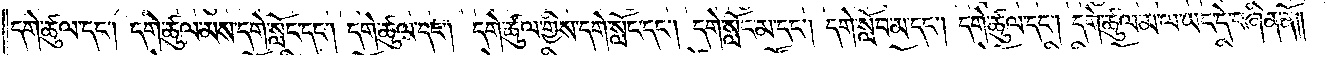དགེ་ཚུལ་དང༌། དགེ་ཚུལ་མས་དགེ་སློང་དང༌། དགེ་ཚུལ་དང༌། དགེ་ཚུལ་གྱིས་དགེ་སློང་དང༌། དགེ་སློང་མ་དང༌། དགེ་སློབ་མ་དང༌། དགེ་ཚུལ་དང༌། དགེ་ཚུལ་མ་ལ་ཡང་དེ་བཞིན་ནོ༎
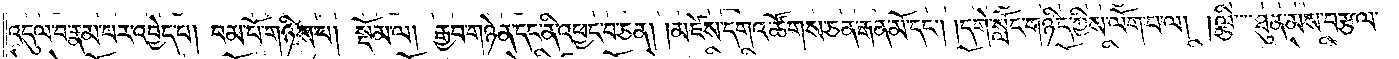འདུལ་བ་རྣམ་པར་འབྱེད་པ། བམ་པོ་གཉིས་པ། སྡོམ་ལ། རྒྱབ་གཉེན་དང་ནི་འཕྱང་བ་ཅན། །མཛེས་དགའ་ཚོགས་ཅན་རྒན་མོ་དང༌། །དགེ་སློང་གཉིད་ཀྱིས་ལོག་པ་ལ། །ལྕི་ཐུན་མས་བརྩལ་
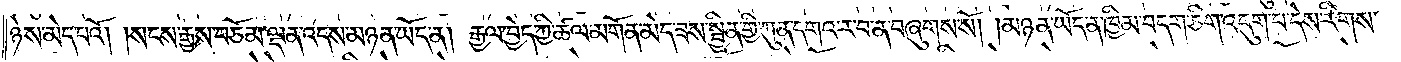ཉེས་མེད་པའོ། །སངས་རྒྱས་བཅོམ་ལྡན་འདས་མཉན་ཡོད་ན། རྒྱལ་བྱེད་ཀྱི་ཚལ་མགོན་མེད་ཟས་སྦྱིན་གྱི་ཀུན་དགའ་ར་བ་ན་བཞུགས་སོ། །མཉན་ཡོད་ན་ཁྱིམ་བདག་ཅིག་འདུག་པ་དེས་རིགས་
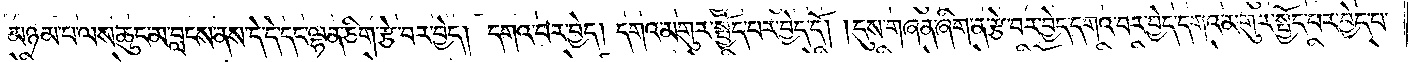མཉམ་པ་ལས་ཆུང་མ་བླངས་ནས་དེ་དེ་དང་ལྷན་ཅིག་རྩེ་བར་བྱེད། དགའ་བར་བྱེད། དགའ་མགུར་སྤྱོད་པར་བྱེད་དོ། །དུས་གཞན་ཞིག་ན་རྩེ་བར་བྱེད་དགའ་བར་བྱེད་དགའ་མགུར་སྤྱོད་པར་བྱེད་པ་
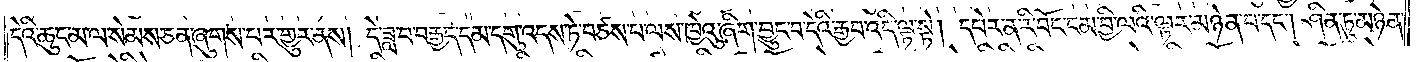དེའི་ཆུང་མ་ལ་སེམས་ཅན་ཞུགས་པར་གྱུར་ནས། དེ་ཟླ་བ་བརྒྱད་དམ་དགུ་འདས་ཏེ་བཙས་པ་ལས་ཁྱེའུ་ཞིག་བྱུང་བ་དེའི་རྒྱབ་འདི་ལྟ་སྟེ། དཔེར་ན་རི་བོང་ངམ་བྱི་ལའི་ལྟར་མཉེན་པ་དང༌། ཤིན་ཏུ་མཉེན་
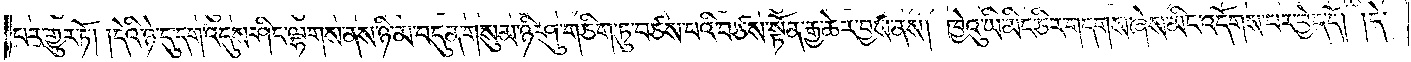པར་གྱུར་ཏོ། །དེའི་ཉེ་དུ་དག་འདུས་ཤིང་ལྷགས་ནས་ཉི་མ་བདུན་གསུམ་ཉི་ཤུ་གཅིག་ཏུ་བཙས་པའི་བཙས་སྟོན་རྒྱ་ཆེར་བྱས་ནས། ཁྱེའུ་ཡི་མིང་ཅིར་གདགས་ཞེས་མིང་འདོགས་པར་བྱེད་དོ། །དེ་
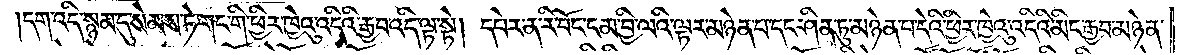།དག་འདི་སྙམ་དུ་སེམས་ཏེ་གང་གི་ཕྱིར་ཁྱེའུ་འདིའི་རྒྱབ་འདི་ལྟ་སྟེ། དཔེར་ན་རི་བོང་ངམ་བྱི་ལའི་ལྟར་མཉེན་པ་དང་ཤིན་ཏུ་མཉེན་པ་དེའི་ཕྱིར་ཁྱེའུ་འདིའི་མིང་རྒྱབ་མཉེན་
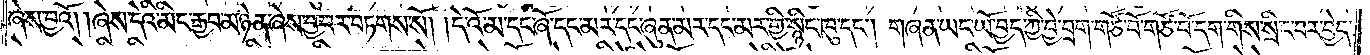ཞེས་བྱའོ། །ཞེས་དེའི་མིང་རྒྱབ་མཉེན་ཞེས་བྱ་བར་བཏགས་སོ། །དེ་འོ་མ་དང་ཞོ་དང་མར་དང་ཞུན་མར་དང་མར་གྱི་སྙིང་ཁུ་དང༌། གཞན་ཡང་ཡོ་བྱད་ཀྱི་བྱེ་བྲག་གཙོ་བོ་གཙོ་བོ་དག་གིས་སྲིང་བར་བྱེད་
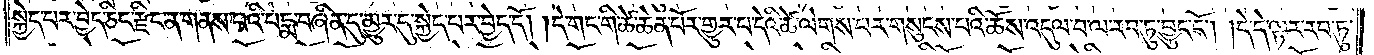སྐྱེད་པར་བྱེད་ཅིང་རྫིང་ན་གནས་པའི་པདྨ་བཞིན་དུ་མྱུར་དུ་སྐྱེད་པར་བྱེད་དོ། །དེ་གང་གི་ཚེ་ཆེན་པོར་གྱུར་པ་དེའི་ཚེ་ལེགས་པར་གསུངས་པའི་ཆོས་འདུལ་བ་ལ་རབ་ཏུ་བྱུང་ངོ༌། །དེ་དེ་ལྟར་རབ་ཏུ་
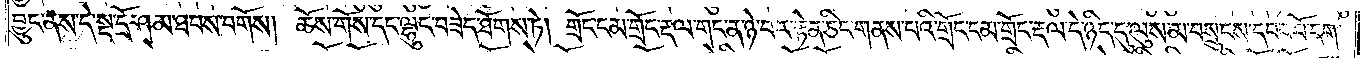བྱུང་ནས་དེ་སྔ་དྲོ་ཤམ་ཐབས་བགོས། ཆོས་གོས་དང་ལྷུང་བཟེད་ཐོགས་ཏེ། གྲོང་ངམ་གྲོང་རྡལ་གང་ན་ཉེ་བར་རྟེན་ཅིང་གནས་པའི་གྲོང་ངམ་གྲོང་རྡལ་དེ་ཉིད་དུ་ལུས་མ་བསྲུངས་དབང་པོ་དག་
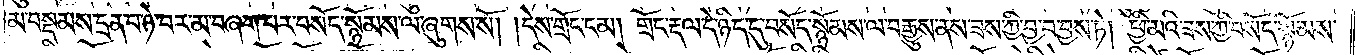མ་བསྡམས་དྲན་པ་ཉེ་བར་མ་བཞག་པར་བསོད་སྙོམས་ལ་ཞུགས་སོ། །དེས་གྲོང་ངམ། གྲོང་རྡལ་དེ་ཉིད་དུ་བསོད་སྙོམས་ལ་བརྒྱུས་ནས་ཟས་ཀྱི་བྱ་བ་བྱས་ཏེ། ཕྱི་མའི་ཟས་ཀྱི་བསོད་སྙོམས་
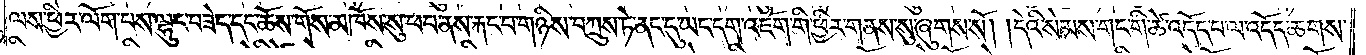ལས་ཕྱིར་ལོག་པས་ལྷུང་བཟེད་དང་ཆོས་གོས་མཁོས་སུ་ཕབ་ནས་རྐང་པ་གཉིས་བཀྲུས་ཏེ་ནང་དུ་ཡང་དག་འཇོག་གི་ཕྱིར་གནས་སུ་ཞུགས་སོ། །དེའི་སེམས་གང་གི་ཚེ་འདོད་པ་ལ་འདོད་ཆགས་
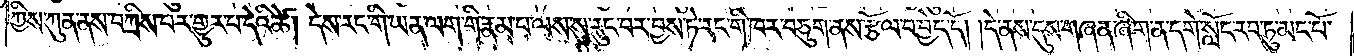ཀྱིས་ཀུན་ནས་བཀྲིས་པར་གྱུར་པ་དེའི་ཚེ། དེས་རང་གི་ཡན་ལག་གི་རྣམ་པ་ལས་སུ་རུང་བར་བྱས་ཏེ་རང་གི་ཁར་བཅུག་ནས་རྩོལ་བ་བྱེད་དོ། །དེ་ནས་དུས་གཞན་ཞིག་ན་དགེ་སློང་རབ་ཏུ་མང་པོ་
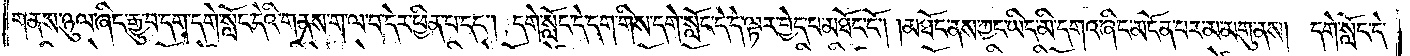གནས་ཉུལ་ཞིང་རྒྱུ་བ་དག་དགེ་སློང་དེའི་གནས་ག་ལ་བ་དེར་ཕྱིན་པ་དང༌། དགེ་སློང་དེ་དག་གིས་དགེ་སློང་དེ་དེ་ལྟར་བྱེད་པ་མཐོང་ངོ༌། །མཐོང་ནས་ཀྱང་ཡིད་མི་དགའ་ཞིང་མངོན་པར་མ་མགུ་ནས། དགེ་སློང་དེ་
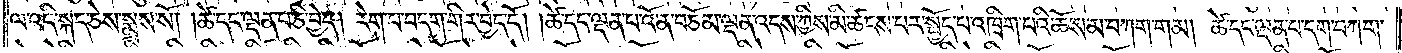ལ་འདི་སྐད་ཅེས་སྨྲས་སོ། །ཚེ་དང་ལྡན་པ་ཅི་བྱེད། རེག་པ་བདག་གིར་བྱེད་དོ། །ཚེ་དང་ལྡན་པ་འོ་ན་བཅོམ་ལྡན་འདས་ཀྱིས་མི་ཚངས་པར་སྤྱོད་པ་འཁྲིག་པའི་ཆོས་མ་བཀག་གམ། ཚེ་དང་ལྡན་པ་དག་བཀག་
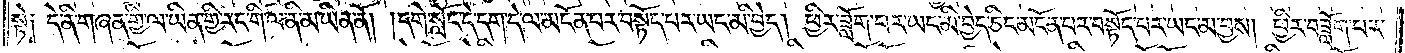སྟེ༑ དེ་ནི་གཞན་གྱི་ལ་ཡིན་གྱི་རང་གི་ལ་ནི་མ་ཡིན་ནོ། །དགེ་སློང་དེ་དག་དེ་ལ་མངོན་པར་བསྟོད་པར་ཡང་མི་བྱེད། ཕྱིར་ཟློག་པར་ཡང་མི་བྱེད་ཅིང་མངོན་པར་བསྟོད་པར་ཡང་མ་བྱས། ཕྱིར་བཟློག་པར་
